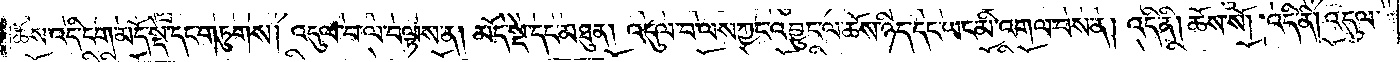ཆོས་འདི་དག་མདོ་སྡེ་དང་གཏུགས། འདུལ་བ་ལ་བལྟས་ན། མདོ་སྡེ་དང་མཐུན། འདུལ་བ་ལས་ཀྱང་འབྱུང་ལ་ཆོས་ཉིད་དང་ཡང་མི་འགལ་བས་ན། འདི་ནི། ཆོས་སོ། །འདི་ནི། འདུལ་
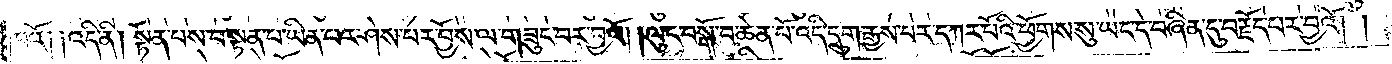བའོ༑ ༑འདི་ནི། སྟོན་པས་བསྟན་པ་ཡིན་པར་ཤེས་པར་བྱོས་ལ་གཟུང་བར་བྱའོ། །ལུང་བསྒོ་བ་ཆེན་པོ་འདི་དྲུག་རྒྱས་པར་དཀར་པོའི་ཕྱོགས་སུ་ཡང་དེ་བཞིན་དུ་བརྗོད་པར་བྱའོ། །
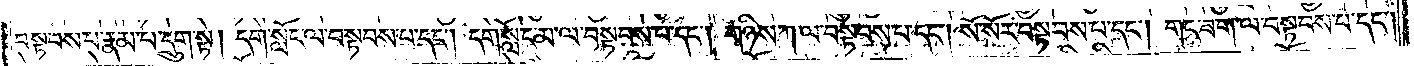བསྟབས་པ་རྣམ་པ་དྲུག་སྟེ། དགེ་སློང་ལ་བསྟབས་པ་དང༌། དགེ་སློང་མ་ལ་བསྟབས་པ་དང༌། གཉིས་ཀ་ལ་བསྟབས་པ་དང༌། སོ་སོར་བསྟབས་པ་དང༌། གང་ཟག་ལ་བསྟབས་པ་དང༌།
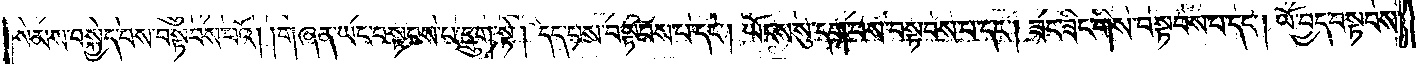སེམས་བསྐྱེད་པས་བསྟབས་པའོ། །གཞན་ཡང་བསྟབས་པ་དྲུག་སྟེ། དད་པས་བསྟབས་པ་དང༌། ཡོངས་སུ་དག་པས་བསྟབས་པ་དང༌། ཟང་ཟིང་གིས་བསྟབས་པ་དང༌། ཡོ་བྱད་བསྟབས་
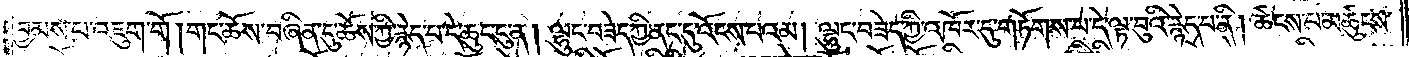བྱམས་པ་འཇུག་གོ། གང་ཆོས་བཞིན་དུ་ཆོས་ཀྱི་རྙེད་པ་དེ་ཆུང་ངུ་ན། ལྷུང་བཟེད་ཀྱི་ནང་དུ་འོངས་པའམ། ལྷུང་བཟེད་ཀྱི་འཁོར་དུ་གཏོགས་པ་དེ་ལྟ་བུའི་རྙེད་པ་ནི། ཚངས་པ་མཚུངས་
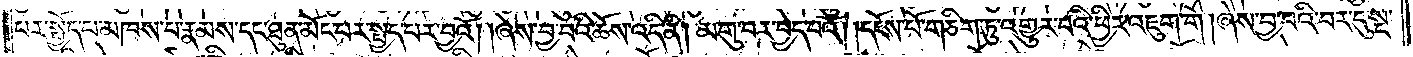པར་སྤྱོད་པ་མཁས་པ་རྣམས་དང་ཐུན་མོང་པར་སྤྱད་པར་བྱའོ། །ཞེས་བྱ་བའི་ཆོས་འདི་ནི། མགུ་བར་བྱེད་པའོ། །དངོས་པོ་གཅིག་ཏུ་འགྱུར་བའི་ཕྱིར་འཇུག་གོ། ཞེས་བྱ་བའི་བར་དུ་སྔ་
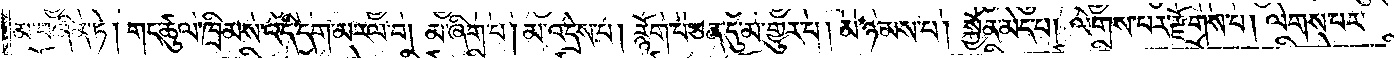མ་བཞིན་ཏེ། གང་ཚུལ་ཁྲིམས་འདི་དག་མ་རལ་བ། མ་ཞིག་པ། མ་འདྲེས་པ། རྙོག་པ་ཅན་དུ་མ་གྱུར་པ། མ་ཉམས་པ། སྐྱོན་མེད་པ། ལེགས་པར་རྫོགས་པ། ལེགས་པར་
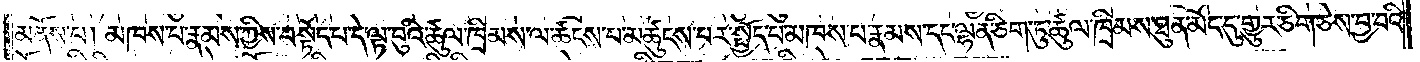མནོས་པ། མཁས་པ་རྣམས་ཀྱིས་བསྟོད་པ་དེ་ལྟ་བུའི་ཚུལ་ཁྲིམས་ལ་ཚངས་པ་མཚུངས་པར་སྤྱོད་པ་མཁས་པ་རྣམས་དང་ལྷན་ཅིག་ཏུ་ཚུལ་ཁྲིམས་ཐུན་མོང་དུ་གྱུར་ཅིག་ཅེས་བྱ་བའི་
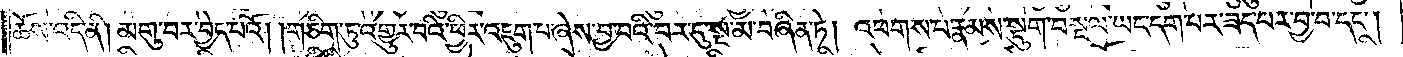ཆོས་འདི་ནི། མགུ་བར་བྱེད་པའོ། །གཅིག་ཏུ་འགྱུར་བའི་ཕྱིར་འཇུག་པ་ཞེས་བྱ་བའི་བར་དུ་སྔ་མ་བཞིན་ཏེ། འཕགས་པ་རྣམས་སྡུག་བསྔལ་ཡང་དག་པར་ཟད་པར་བྱ་བ་དང༌།
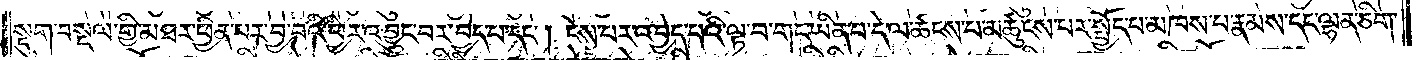སྡུག་བསྔལ་གྱི་མཐར་ཕྱིན་པར་བྱ་བའི་ཕྱིར་འབྱུང་བར་བྱེད་པ་དང༌། ངེས་པར་འབྱེད་པའི་ལྟ་བ་གང་ཡིན་པ་དེ་ལ་ཚངས་པ་མཚུངས་པར་སྤྱོད་པ་མཁས་པ་རྣམས་དང་ལྷན་ཅིག་
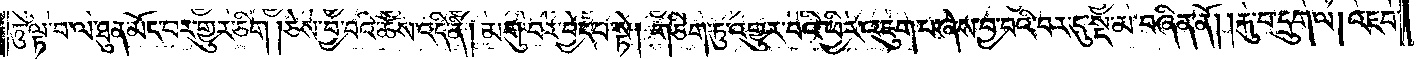ཏུ་ལྟ་བ་ལ་ཐུན་མོང་བར་གྱུར་ཅིག། ཅེས་བྱ་བའི་ཆོས་འདི་ནི། མགུ་བར་བྱེད་པ་སྟེ། གཅིག་ཏུ་འགྱུར་བའི་ཕྱིར་འཇུག་པ་ཞེས་བྱ་བའི་བར་དུ་སྔ་མ་བཞིན་ནོ། །རྐུ་བ་དྲུག་ལ། འཇབ་
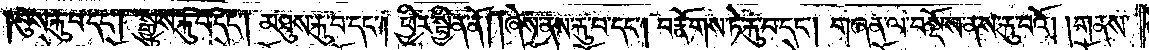བུས་རྐུ་བ་དང༌། སྒྱུས་རྐུ་བ་དང༌། མཐུས་རྐུ་བ་དང༌། ཕྱིར་སྦྱིན་ནོ། །ཞེས་ནས་རྐུ་བ་དང༌། བརྣོགས་ཏེ་རྐུ་བ་དང༌། གཞན་ལ་བསྔོས་ནས་རྐུ་བའོ། །གནས་
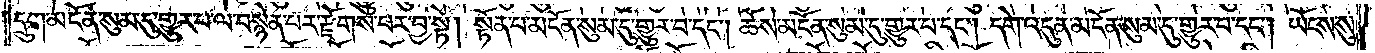དྲུག་མངོན་སུམ་དུ་གྱུར་པ་ལ་བསྙེན་པར་རྫོགས་པར་བྱ་སྟེ། སྟོན་པ་མངོན་སུམ་དུ་གྱུར་པ་དང༌། ཆོས་མངོན་སུམ་དུ་གྱུར་པ་དང༌། དགེ་འདུན་མངོན་སུམ་དུ་གྱུར་པ་དང༌། ཡོངས་སུ་
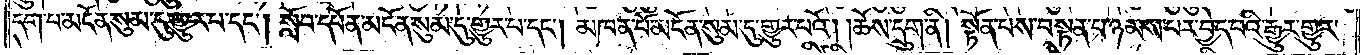དག་པ་མངོན་སུམ་དུ་གྱུར་པ་དང༌། སློབ་དཔོན་མངོན་སུམ་དུ་གྱུར་པ་དང༌། མཁན་པོ་མངོན་སུམ་དུ་གྱུར་པའོ། །ཆོས་དྲུག་ནི། སྟོན་པས་བསྟན་པ་ཉམས་པར་བྱེད་པའི་རྒྱུར་གྱུར་
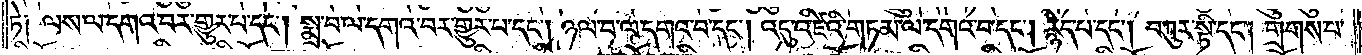ཏེ༑ ལས་ལ་དགའ་བར་གྱུར་པ་དང༌། སྨྲ་བ་ལ་དགའ་བར་གྱུར་པ་དང༌། ཉལ་བ་ལ་དགའ་བ་དང༌། འདུ་འཛིའི་གཏམ་ལ་དགའ་བ་དང༌། རྙེད་པ་དང༌། བཀུར་སྟི་དང༌། གྲགས་པ་
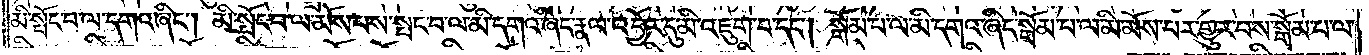མི་སྤོང་བ་ལ་དགའ་ཞིང༌། མི་སྤོང་བ་ལ་མོས་པས་སྤང་བ་ལ་མི་དགའ་ཞིང་རྣལ་འབྱོར་དུ་མི་འཇུག་བ་དང༌། སྒོམ་པ་ལ་མི་དགའ་ཞིང་སྒོམ་པ་ལ་མི་མོས་པར་གྱུར་བས་སྒོམ་པ་ལ་
